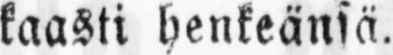kaasti henkeänsä.
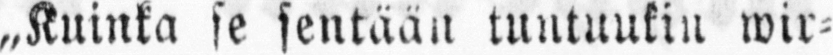„Kuinka se sentään tuntuukin wir-
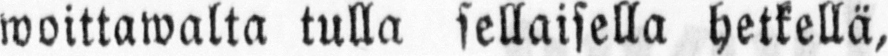woittawalta tulla sellaisella hetkellä,
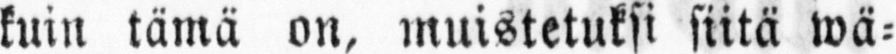kuin tämä on, muistetuksi siitä wä-
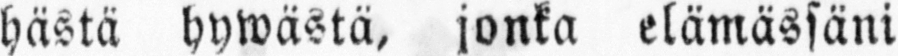hästä hywästä, jonka elämässäni
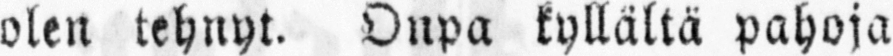olen tehnyt. Onpa kyllältä pahoja
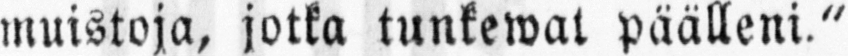muistoja, jotka tunkewat päälleni."
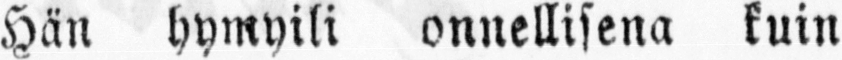Hän hymyili onnellisena kuin
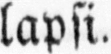lapsi.
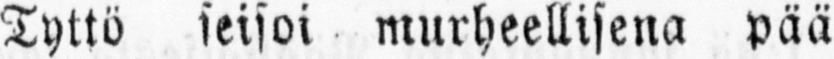Tyttö seisoi murheellisena pää
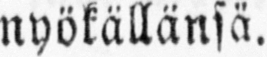nyökällänsä.
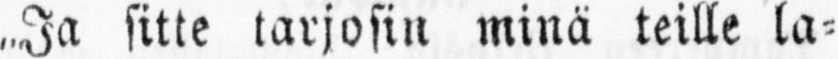„Ja sitte tarjosin minä teille la-
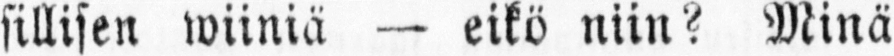sillisen wiiniä — eikö niin? Minä
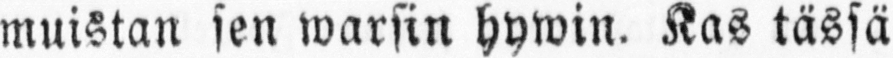muistan sen warsin hywin. Kas tässä
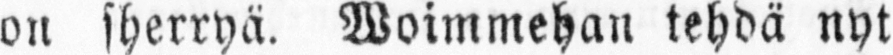on sherryä. Woimmehan tehdä nyt
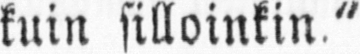kuin silloinkin."
